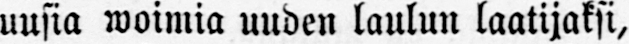uusia woimia uuden laulun laatijaksi,
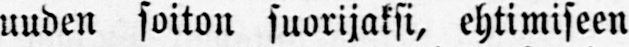uuden soiton suorijaksi, ehtimiseen
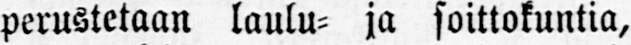perustetaan laulu- ja soittokuntia,
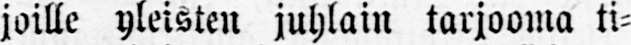joille yleisten juhlain tarjooma ti-
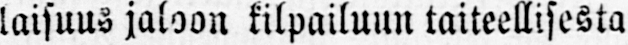laisuus jaloon kilpailuun taiteellisesta
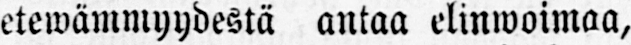etewämmyydestä antaa elinwoimaa,
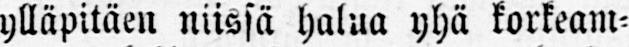ylläpitäen niissä halua yhä korkeam-
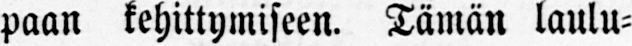paan kehittymiseen. Tämän laulu-
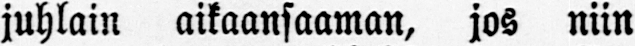juhlain aikaansaaman, jos niin
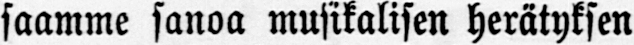saamme sanoa musikalisen herätyksen
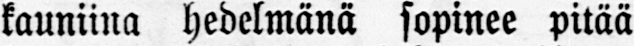kauniina hedelmänä sopinee pitää
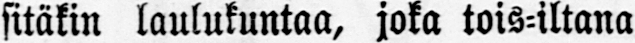sitäkin laulukuntaa, joka tois-iltana
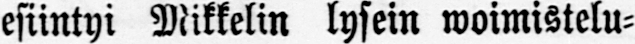esiintyi Mikkelin lysein woimistelu-
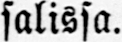salissa.
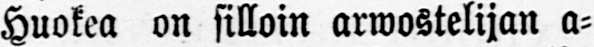Huokea on silloin arwostelijan a-
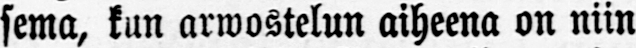sema, kun arwostelun aiheena on niin
